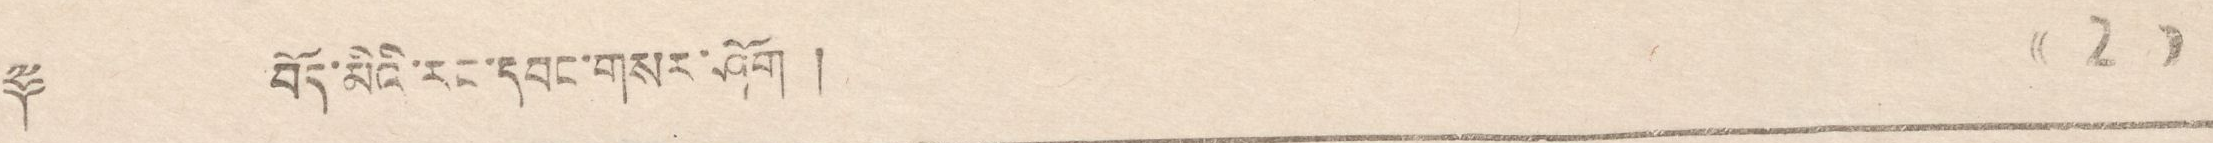༈ བོད་མིའི་རང་དབང་གསར་ཤོག ། (( 2 ))
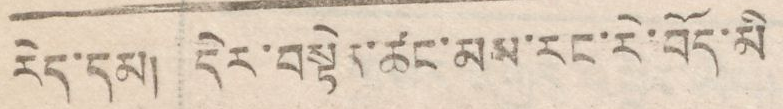རེད་དམ། དེར་བསྟེན་ཚང་མས་རང་རེ་བོད་མི
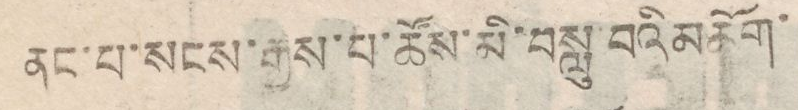ནང་པ་སངས་རྒྱས་པ་ཚོས་མི་བསླུ་བའི མཆོག་
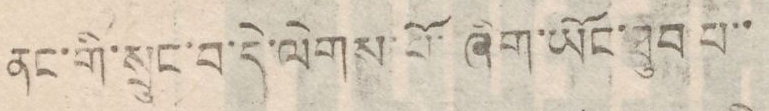ནང་གི་སྲུང་བ་དེ་ལེགས་པོ་ཞིག་ཡོང་ཐུབ་པ་་
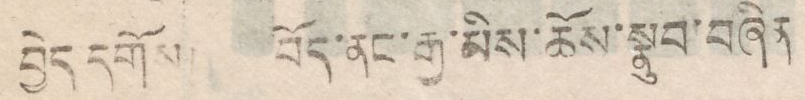བྱེད དགོས བོད་ནང་རྒྱ་མིས་ཆོས་སྣུབ་བཞིན
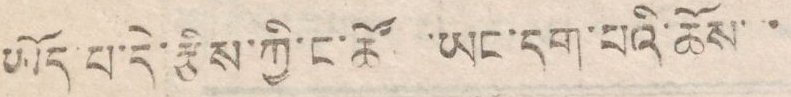ཡོད་པ་དེ་རྩིས་ཀྱི་ང་ཚོ ་ཡང་དག་པའི་ཆོས་་་
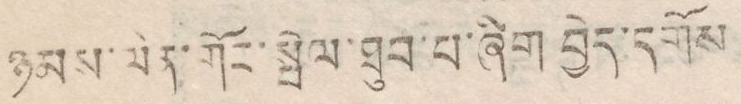ཉམས་ལེན་གོང་སྤེལ་ཐུབ་པ་ཞིག་བྱེད་དགོས
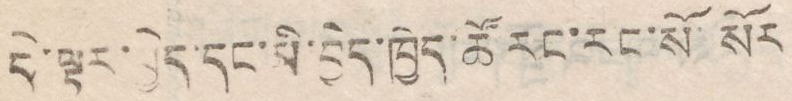དེ་ལྟར་བྱེད་དང་མི་བྱེད་ཁྱེད་ཚོ་རང་རང་སོ་སོར
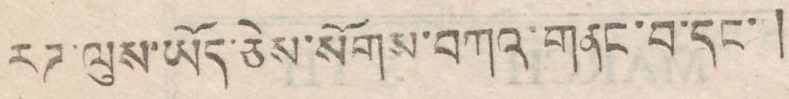རཌ་ལུས་ཡོད་ཅེས་སོགས་བཀའ་གནང་བ་དང་།
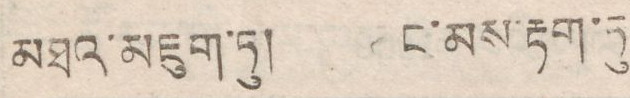མཐའ་མཇུག་ཏུ། ང་མས་རྟག་ཏུ
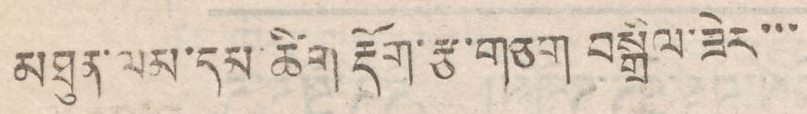མཐུན་ལམ་དམ་ཚིག་རྡོག་རྩ་གཅག བསྒྲིལ་ཟེར་་་
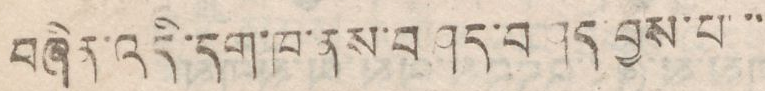བཞིན་འདི་དག་ཁ་ནས་བཤད་བཤད་བྱས་པ་་་
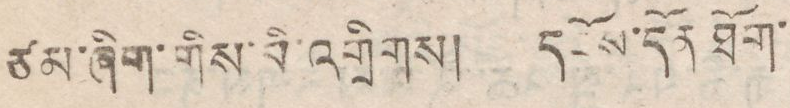ཙམ་ཞིག་གིས་མི་འགྲིགས། དངོས་དོན་ཐོག་
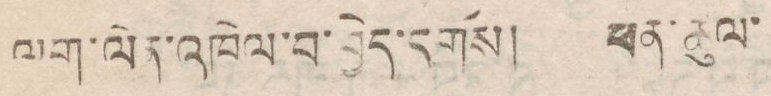ལག་ལེན་འཁེལ་བ་བྱེད་དགོས། ཕན་ཚུལ་
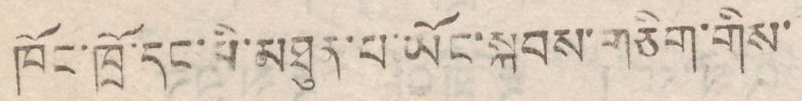ཁོང་ཁྲོ་དང་མི་མཐུན་པ་ཡོང་སྐབས་གཅིག་གིས་
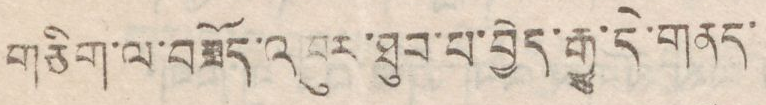གཅིག་ལ་བཟོད་འཁུར་ཐུབ་པ་བྱེད་རྒྱུ་དེ་གནད་
